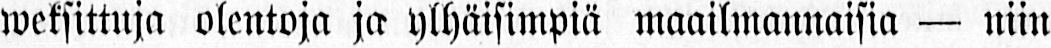weksittuja olentoja ja ylhäisimpiä maailmannaisia - niin
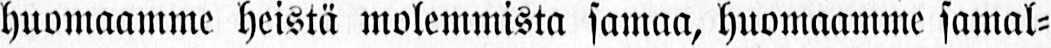huomaamme heistä molemmista samaa, huomaamme samal-
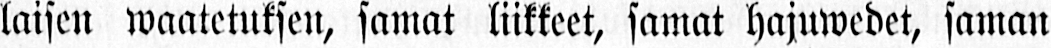laisen waatetuksen, samat liikkeet, samat hajuwedet, saman
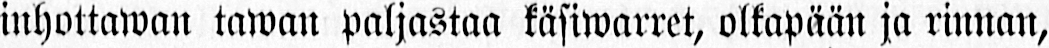inhottawan tawan paljastaa käsiwarret, olkapään ja rinnan,
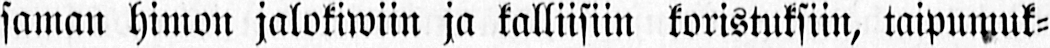saman himon jalokiwiin ja kalliisiin koristuksiin, taipumuk-
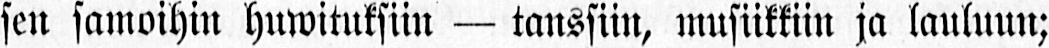sen samoihin huwituksiin - tanssiin, musiikkiin ja lauluun;
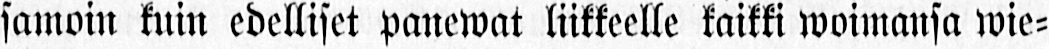samoin kuin edelliset panewat liikkeelle kaikki woimansa wie-
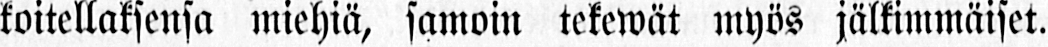koitellaksensa miehiä, samoin tekewät myös jälkimmäiset.
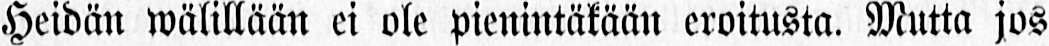Heidän wälillään ei ole pienintäkään eroitusta. Mutta jos
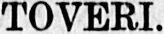KANSAN TOVERI.
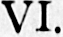VI.
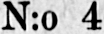N:o 4
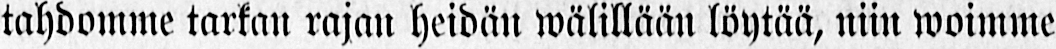tahdomme tarkan rajan heidän wälillään löytää, niin woimme
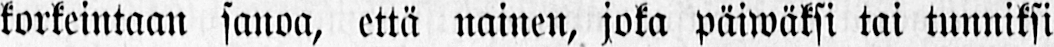korkeintaan sanoa, että nainen, joka päiwäksi tai tunniksi
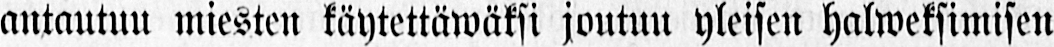antautuu miesten käytettäwäksi joutuu yleisen halweksimisen
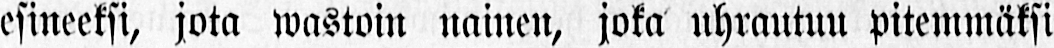esineeksi, jota wastoin nainen, joka uhrautuu pitemmäksi
